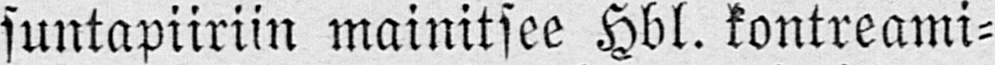suntapiiriin mainitsee Hbl. kontreami-
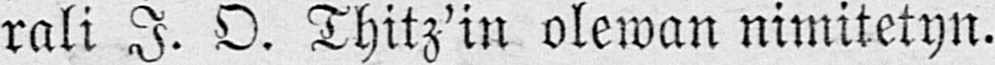rali I. O. Thitz'in olewan nimitetyn.
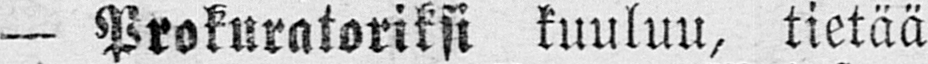— Prokuratoriksi kuuluu, tietää
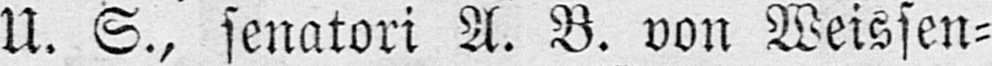U. S., senatori A. B. von Weissen-
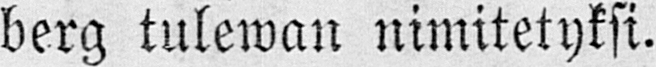berg tulewan nimitetyksi.
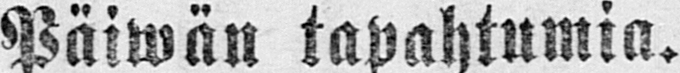Päiwän tapahtumia.
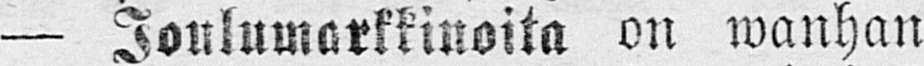— Joulumarkkinoita on wanhan
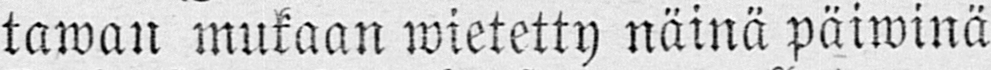tawan mukaan wietetty näinä päiwinä
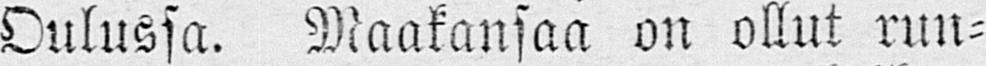Oulussa. Maakansaa on ollut run-
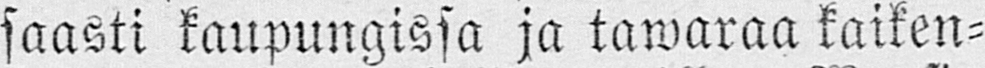saasti kaupungissa ja tawaraa kaiken-
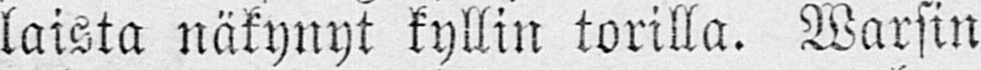kaiken näkynyt kyllin torilla. Warsin
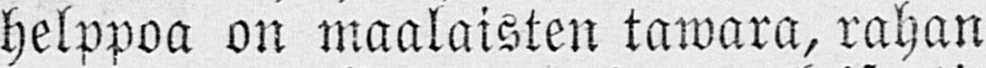helppoa on maalaisten tawara, rahan
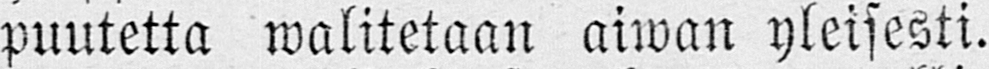puutetta walitetaan aiwan yleisesti.
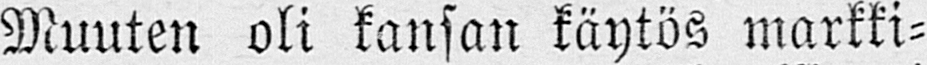Muuten oli kansan käytös markki-
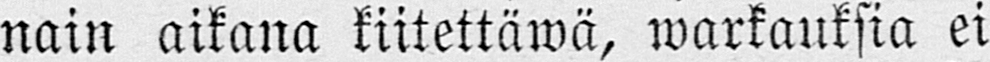nain aikana kiitettäwä, warkauksia ei
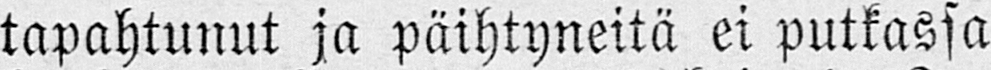tapahtunut ja päihtyneitä ei putkassa
